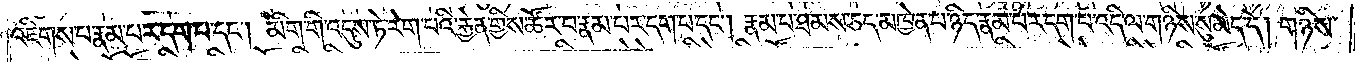འཇིགས་པ་རྣམ་པར་དག་པ་དང༌། མིག་གི་འདུས་ཏེ་རེག་པའི་རྐྱེན་གྱིས་ཚོར་བ་རྣམ་པར་དག་པ་དང༌། རྣམ་པ་ཐམས་ཅད་མཁྱེན་པ་ཉིད་རྣམ་པར་དག་པ་འདི་ལ་གཉིས་སུ་མེད་དེ། གཉིས་
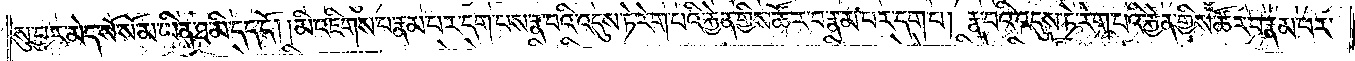སུ་བྱར་མེད་སོ་སོ་མ་ཡིན་ཐ་མི་དད་དོ། །མི་འཇིགས་པ་རྣམ་པར་དག་པས་རྣ་བའི་འདུས་ཏེ་རེག་པའི་རྐྱེན་གྱིས་ཚོར་བ་རྣམ་པར་དག་པ། རྣ་བའི་འདུས་ཏེ་རེག་པའི་རྐྱེན་གྱིས་ཚོར་བ་རྣམ་པར་
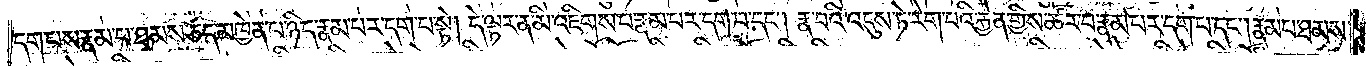དག་པས་རྣམ་པ་ཐམས་ཅད་མཁྱེན་པ་ཉིད་རྣམ་པར་དག་པ་སྟེ། དེ་ལྟར་ན་མི་འཇིགས་པ་རྣམ་པར་དག་པ་དང༌། རྣ་བའི་འདུས་ཏེ་རེག་པའི་རྐྱེན་གྱིས་ཚོར་བ་རྣམ་པར་དག་པ་དང༌། རྣམ་པ་ཐམས་
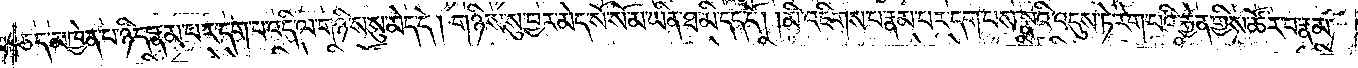ཅད་མཁྱེན་པ་ཉིད་རྣམ་པར་དག་པ་འདི་ལ་གཉིས་སུ་མེད་དེ། གཉིས་སུ་བྱར་མེད་སོ་སོ་མ་ཡིན་ཐ་མི་དད་དོ། །མི་འཇིགས་པ་རྣམ་པར་དག་པས་སྣའི་འདུས་ཏེ་རེག་པའི་རྐྱེན་གྱིས་ཚོར་བ་རྣམ་
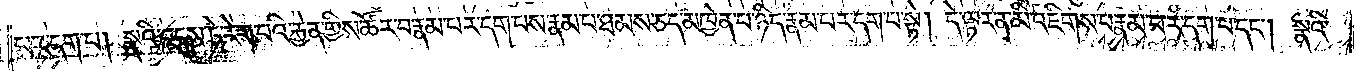པར་དག་པ། སྣའི་འདུས་ཏེ་རེག་པའི་རྐྱེན་གྱིས་ཚོར་བ་རྣམ་པར་དག་པས་རྣམ་པ་ཐམས་ཅད་མཁྱེན་པ་ཉིད་རྣམ་པར་དག་པ་སྟེ། དེ་ལྟར་ན་མི་འཇིགས་པ་རྣམ་པར་དག་པ་དང༌། སྣའི་
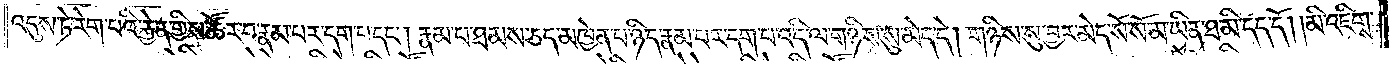འདུས་ཏེ་རེག་པའི་རྐྱེན་གྱིས་ཚོར་བ་རྣམ་པར་དག་པ་དང༌། རྣམ་པ་ཐམས་ཅད་མཁྱེན་པ་ཉིད་རྣམ་པར་དག་པ་འདི་ལ་གཉིས་སུ་མེད་དེ། གཉིས་སུ་བྱར་མེད་སོ་སོ་མ་ཡིན་ཐ་མི་དད་དོ། །མི་འཇིགས་
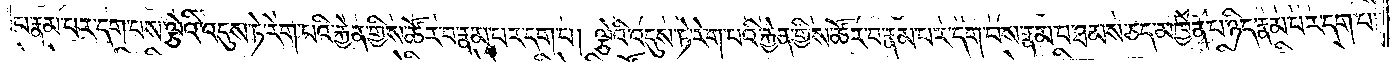པ་རྣམ་པར་དག་པས་ལྕེའི་འདུས་ཏེ་རེག་པའི་རྐྱེན་གྱིས་ཚོར་བ་རྣམ་པར་དག་པ། ལྕེའི་འདུས་ཏེ་རེག་པའི་རྐྱེན་གྱིས་ཚོར་བ་རྣམ་པར་དག་པས་རྣམ་པ་ཐམས་ཅད་མཁྱེན་པ་ཉིད་རྣམ་པར་དག་པ་
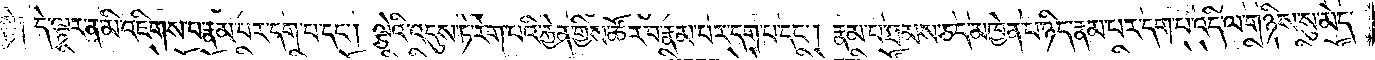སྟེ༑ དེ་ལྟར་ན་མི་འཇིགས་པ་རྣམ་པར་དག་པ་དང༌། ལྕེའི་འདུས་ཏེ་རེག་པའི་རྐྱེན་གྱིས་ཚོར་བ་རྣམ་པར་དག་པ་དང༌། རྣམ་པ་ཐམས་ཅད་མཁྱེན་པ་ཉིད་རྣམ་པར་དག་པ་འདི་ལ་གཉིས་སུ་མེད་
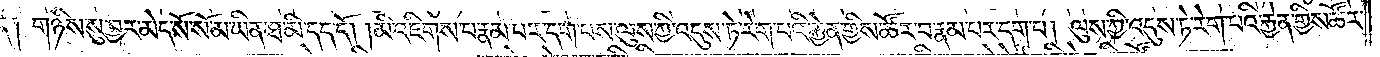དེ༑ གཉིས་སུ་བྱར་མེད་སོ་སོ་མ་ཡིན་ཐ་མི་དད་དོ། །མི་འཇིགས་པ་རྣམ་པར་དག་པས་ལུས་ཀྱི་འདུས་ཏེ་རེག་པའི་རྐྱེན་གྱིས་ཚོར་བ་རྣམ་པར་དག་པ། ལུས་ཀྱི་འདུས་ཏེ་རེག་པའི་རྐྱེན་གྱིས་ཚོར་
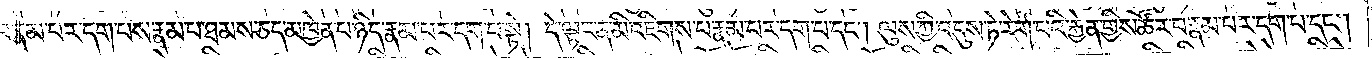བ་རྣམ་པར་དག་པས་རྣམ་པ་ཐམས་ཅད་མཁྱེན་པ་ཉིད་རྣམ་པར་དག་པ་སྟེ། དེ་ལྟར་ན་མི་འཇིགས་པ་རྣམ་པར་དག་པ་དང༌། ལུས་ཀྱི་འདུས་ཏེ་རེག་པའི་རྐྱེན་གྱིས་ཚོར་བ་རྣམ་པར་དག་པ་དང༌།
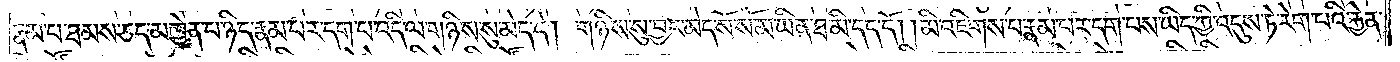རྣམ་པ་ཐམས་ཅད་མཁྱེན་པ་ཉིད་རྣམ་པར་དག་པ་འདི་ལ་གཉིས་སུ་མེད་དེ། གཉིས་སུ་བྱར་མེད་སོ་སོ་མ་ཡིན་ཐ་མི་དད་དོ། །མི་འཇིགས་པ་རྣམ་པར་དག་པས་ཡིད་ཀྱི་འདུས་ཏེ་རེག་པའི་རྐྱེན་
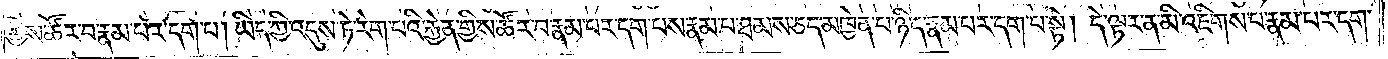གྱིས་ཚོར་བ་རྣམ་པར་དག་པ། ཡིད་ཀྱི་འདུས་ཏེ་རེག་པའི་རྐྱེན་གྱིས་ཚོར་བ་རྣམ་པར་དག་པས་རྣམ་པ་ཐམས་ཅད་མཁྱེན་པ་ཉིད་རྣམ་པར་དག་པ་སྟེ། དེ་ལྟར་ན་མི་འཇིགས་པ་རྣམ་པར་དག་
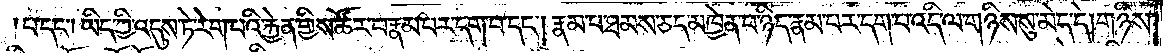པ་དང༌། ཡིད་ཀྱི་འདུས་ཏེ་རེག་པའི་རྐྱེན་གྱིས་ཚོར་བ་རྣམ་པར་དག་པ་དང༌། རྣམ་པ་ཐམས་ཅད་མཁྱེན་པ་ཉིད་རྣམ་པར་དག་པ་འདི་ལ་གཉིས་སུ་མེད་དེ། གཉིས་
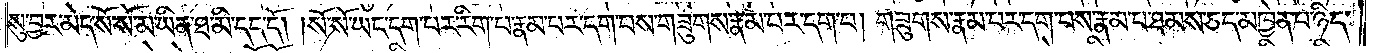སུ་བྱར་མེད་སོ་སོ་མ་ཡིན་ཐ་མི་དད་དོ། །སོ་སོ་ཡང་དག་པར་རིག་པ་རྣམ་པར་དག་པས་གཟུགས་རྣམ་པར་དག་པ། གཟུགས་རྣམ་པར་དག་པས་རྣམ་པ་ཐམས་ཅད་མཁྱེན་པ་ཉིད་
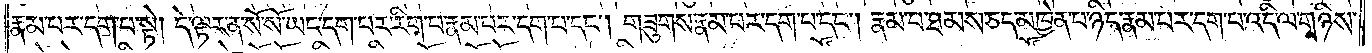རྣམ་པར་དག་པ་སྟེ། དེ་ལྟར་ན་སོ་སོ་ཡང་དག་པར་རིག་པ་རྣམ་པར་དག་པ་དང༌། གཟུགས་རྣམ་པར་དག་པ་དང༌། རྣམ་པ་ཐམས་ཅད་མཁྱེན་པ་ཉིད་རྣམ་པར་དག་པ་འདི་ལ་གཉིས་
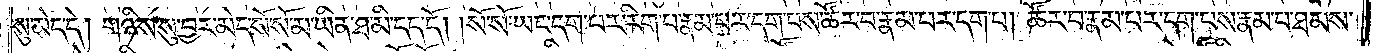སུ་མེད་དེ། གཉིས་སུ་བྱར་མེད་སོ་སོ་མ་ཡིན་ཐ་མི་དད་དོ། །སོ་སོ་ཡང་དག་པར་རིག་པ་རྣམ་པར་དག་པས་ཚོར་བ་རྣམ་པར་དག་པ། ཚོར་བ་རྣམ་པར་དག་པས་རྣམ་པ་ཐམས་
